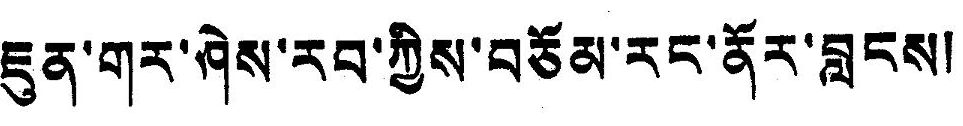ཇུན་གར་ཤེས་རབ་ཀྱིས་བཅོམ་རང་ནོར་བླངས།
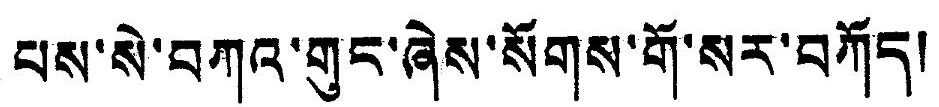པས་སེ་བཀའ་གུང་ཞེས་སོགས་གོ་སར་བཀོད།
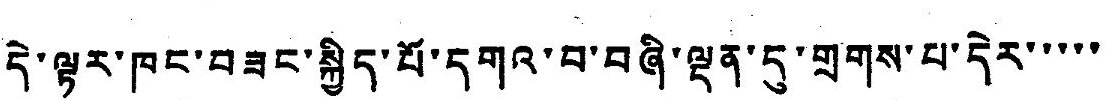དེ་ལྟར་ཁང་བཟང་སྐྱིད་པོ་དགའ་བ་བཞི་ལྡན་དུ་གྲགས་པ་དེར་་་་་
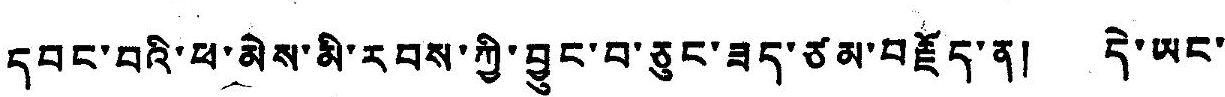དབང་བའི་ཕ་མེས་མི་རབས་ཀྱི་བྱུང་བ་ཅུང་ཟད་ཙམ་བརྗོད་ན། དེ་ཡང་
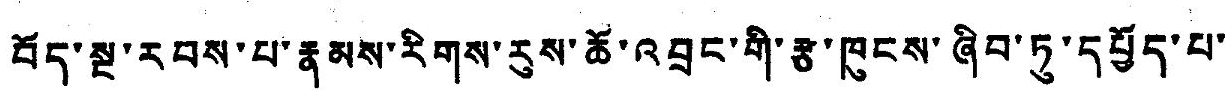བོད་སྔ་རབས་པ་རྣམས་རིགས་རུས་ཆོ་འབྲང་གི་རྩ་ཁུངས་ཞིབ་ཏུ་དཔྱོད་པ་
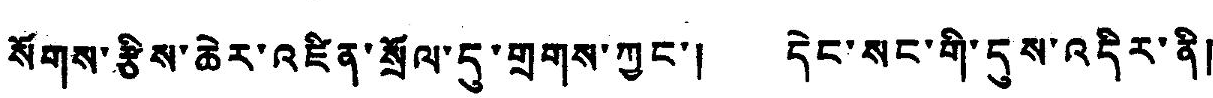སོགས་རྩིས་ཆེར་འཛིན་སྲོལ་དུ་གྲགས་ཀྱང་། དེང་སང་གི་དུས་འདིར་ནི།
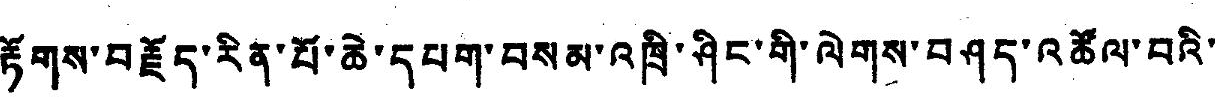རྟོགས་བརྗོད་རིན་པོ་ཆེ་དཔག་བསམ་འཁྲི་ཤིང་གི་ལེགས་བཤད་འཚོལ་བའི་
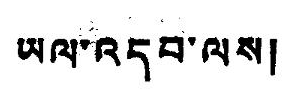ཡལ་འདབ་ལས།
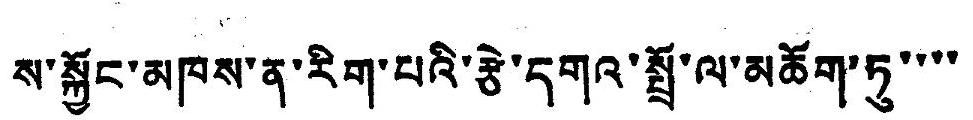ས་སྐྱོང་མཁས་ན་རིག་པའི་རྩེ་དགའ་སྤྲོ་ལ་མཆོག་ཏུ་་་་
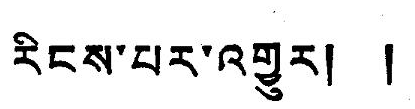རིངས་པར་འགྱུར། །
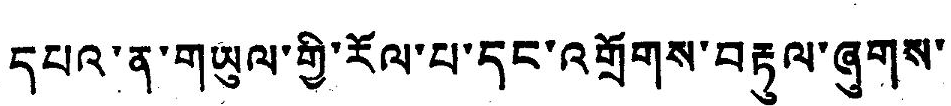དཔའ་ན་གཡུལ་གྱི་རོལ་པ་དང་འགྲོགས་བརྟུལ་ཞུགས་
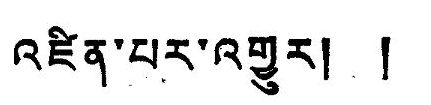འཛིན་པར་འགྱུར། །
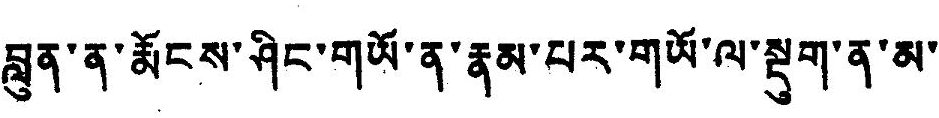བླུན་ན་རྨོངས་ཤིང་གཡོ་ན་རྣམ་པར་གཡོ་ལ་སྡུག་ན་མ་
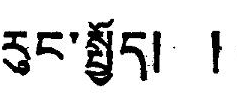རུང་སྤྱོད། །
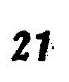21
